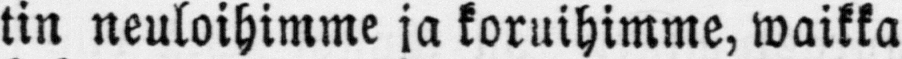tin neuloihimme ja koruihimme, waikka
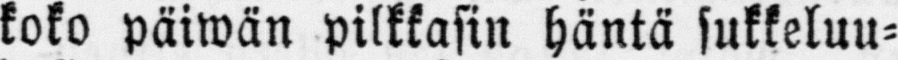koko päiwän pilkkasin häntä sukkeluu-
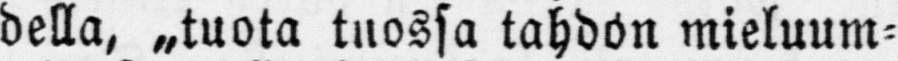della, „tuota tuossa tahdon mieluum-
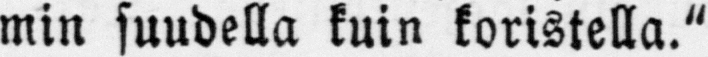min suudella kuin koristella."
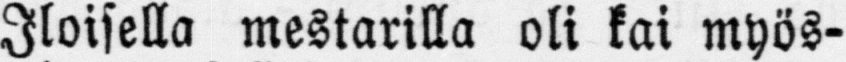Iloisella mestarilla oli kai myös-
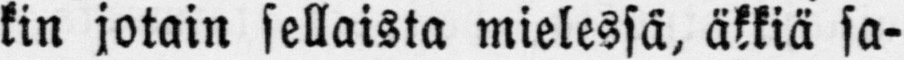kin jotain sellaista mielessä, äkkiä sa-
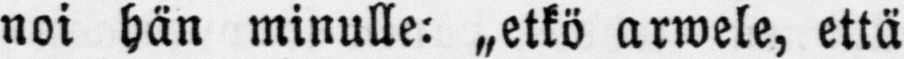noi hän minulle: „etkö arwele, että
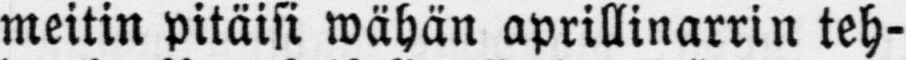meitin pitäisi wähän aprillinarrin teh-
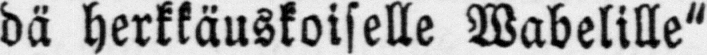dä herkkäuskoiselle Wabelille"
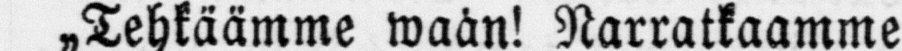„Tehkäämme waan! Narratkaamme
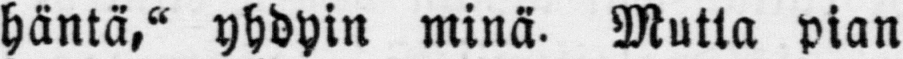häntä," yhdyin minä. Mutta pian
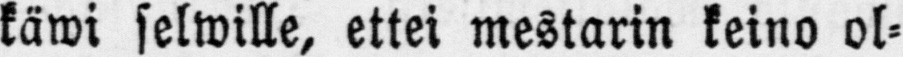käwi selwille, ettei mestarin keino ol-
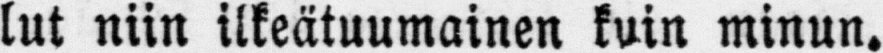lut niin ilkeätuumainen kuin minun.
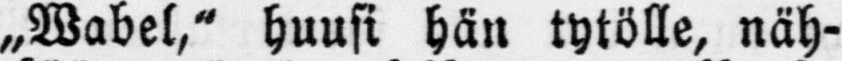„Wabel," huusi hän tytölle, näh-
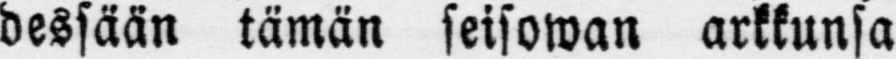dessään tämän seisowan arkkunsa
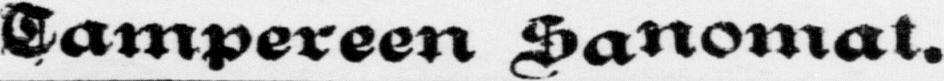Tampereen Sanomat.
